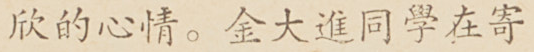欣的心情。金大進同學在寄
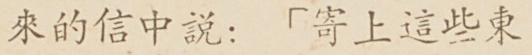來的信中說：「寄上這些東
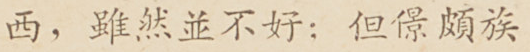西，雖然並不好；但景頗族
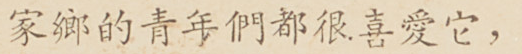假想敵青年們都很喜愛它，
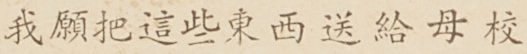我願把這些東西送給母校
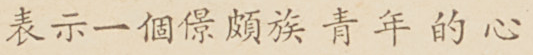表示一個景頗族青年的心
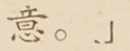意。」
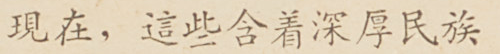現在，這些含着深厚民族
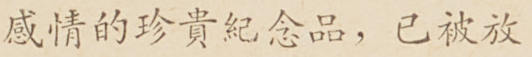感情的珍貴紀念品，已被放
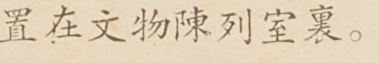置在文物陳列室裏。
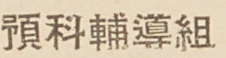預科輔導組
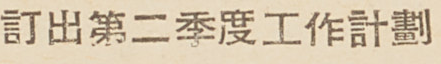訂出第二季度工作計劃
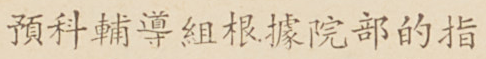預科輔導組根據院部的指
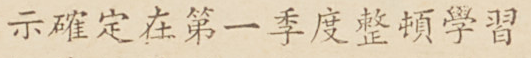示確定在第一季度整頓學習
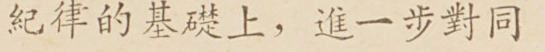紀律的基礎上，進一步對同
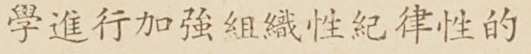學進行加強組織性紀律性的
